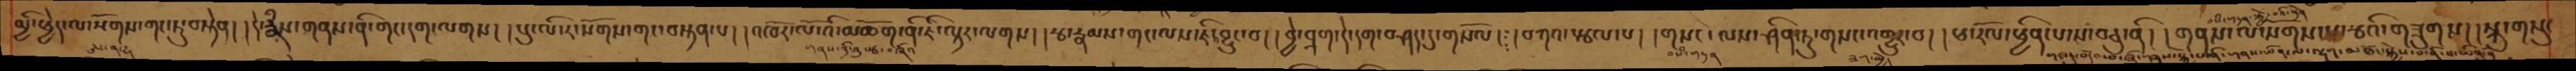མྱི་ཕྱེད་ལ་སོགས་གང་ཏུ་བསྟེན། །དེ་རྣཾས་གནས་ནི་གང་དག་ལགས། །སུ་ལི་ར་སོགས་གང་བསྟན་པ། །འཁོར་ལོ་འི་མཆོག་ནི་ཇི་ལྟར་ལགས། །རྩ་རྣམས་གང་ལས་ཇི་བྱུང་བ། །བྱེ་བྲག་དེ་དག་བཤད་དུ་གསོལ། །བཀའ་སྩལ་པ། །གསང་ལས་ཤིན་ཏུ་གསང་འགྱུར་བ། །ཕ་རོལ་ཕྱིན་པ་ས་བཅུ་ནི། །གནས་ལ་སོགས་པ་རྩའི་གཟུགས། །སྐུ་གསུང
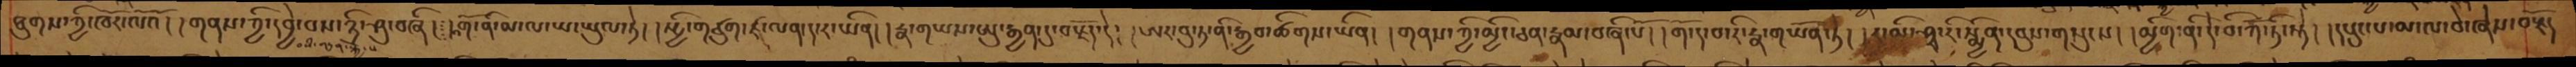ཐུགས་ཀྱི་ཁོར་ལོའོ། །གནས་ཀྱི་དབྱེ་བས་ཉི་ཤུ་བཞི། །འགོ་ནི་མ་ལ་ཡ་ཡུལ་ཏེ། །སྤྱི་གཙུག་ཛ་ལན་ད་ར་ཡིན། །རྣ་གཡས་ཨུ་རྒྱན་དུ་བརྗོད་དེ། །ཨར་བུ་ཏ་ནི་རྒྱབ་ཚིགས་ཡིན། །གནས་ཀྱི་མྱིང་ཅན་རྣམ་བཞི་པོ། །གོ་ད་བ་རི་རྣ་གཡོན་ཏེ། །ར་མི་ཤྭ་རི་སྨྱིན་དབུས་གསུངས། །མྱིག་ནི་དེ་བི་ཀོ་ཏི་སྟེ། །དཔུང་པ་མ་ལ་བེ་ཞེས་བརྗོད
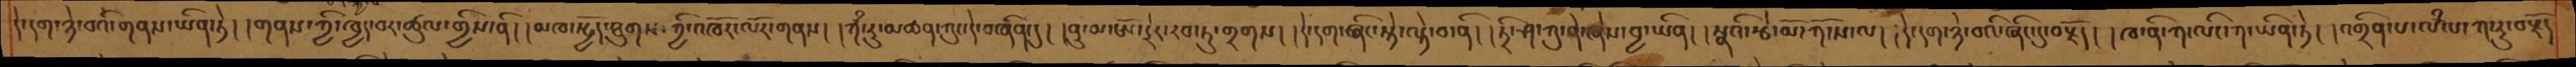དེ་དག་ཉེ་བའི་གནས་ཡིན་ཏེ། །གནས་ཀྱི་ཁྱད་པར་ཚུལ་གྱིས་ནི་། །མཁ་སྤྱོད་ཐུགས་ཀྱི་འཁོར་ལོར་གནས། །ཀཾ་རུ་མཚན་ཀུང་དེ་བཞིན་དུ། །ནུ་མ་ཨོ་དྲེད་རབ་ཏུ་གྲགས། དེ་དག་ཞིང་སྟེ་ལྟེ་བ་ནི་། །ཏྲི་ཤ་ཀུ་ནེ་ཞེས་བྱ་ཡིན། །སྣའི་རྩེ་མོ་ཀོ་ས་ལ། །དེ་དག་ཉེ་བའི་ཞིང་དུ་བརྗོད། །ཁ་ནི་ཀ་ལིང་ཀ་ཡིན་ཏེ། །འགྲིན་པ་ལཾ་པ་ཀ་རུ་བརྗོད
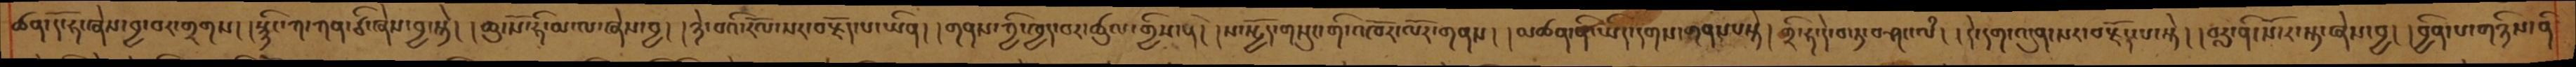ཚན་དོ་ཧ་ཞེས་བྱ་བར་གྲགས། །སྙིང་ཀ་ཀན་ཙི་ཞེས་བྱ་སྟེ།  ཆུ་སོ་ཧི་མ་ལ་ཞེས་བྱ། །ཉེ་བའི་རོལ་སར་བརྗོད་པ་ཡིན། །གནས་ཀྱི་ཁྱད་པར་ཚུལ་གྱིས་སྟེ། །ས་སྤྱོད་གསུང་གི་འཁོར་ལོར་གནས། །མཚན་ནི་ཡིད་དགས་གནས་པ་སྟེ། གྲི་ཧ་དེ་བ་ཏ་བཤང་ལཾ། །དེ་དག་འདུན་སར་བརྗོད་པ་སྟེ། བརླ་ནི་སོ་ར་སྟ་ཞེས་བྱ། །བྱིན་པ་གཉིས་ནི
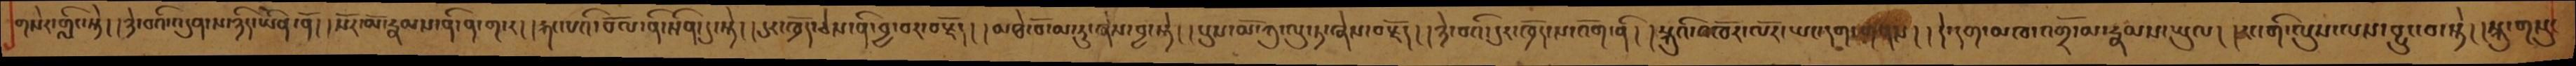གསེར་གླིང་སྟེ། །ཉེ་བའི་འདུན་པ་ཉིད་ཡིན་ནོ། །སོར་མོ་རྣམས་ནི་ན་ག་ར། །རྐང་པའི་བོལ་ནི་སིན་དུ་སྟེ། །དུར་ཁྲོད་ཅེས་ནི་བྱ་བར་བརྗོད། །མཐེ་བོ་མ་རུ་ཞེས་བྱ་སྟེ། །པུས་མོ་ཀུ་ལུ་ཏ་ཞེས་བརྗོད། །ཉེ་བའི་དུར་ཁྲོད་ས་འོག་ནི། །སྐུའི་འཁོར་ལོར་ཡང་དག་གནས། །དེ་དག་མཁ་འགྲོ་མ་རྣམས་ཡུལ། །རང་གི་ལུས་ལས་བྱུང་བ་སྟེ། །སྐུ་གསུང
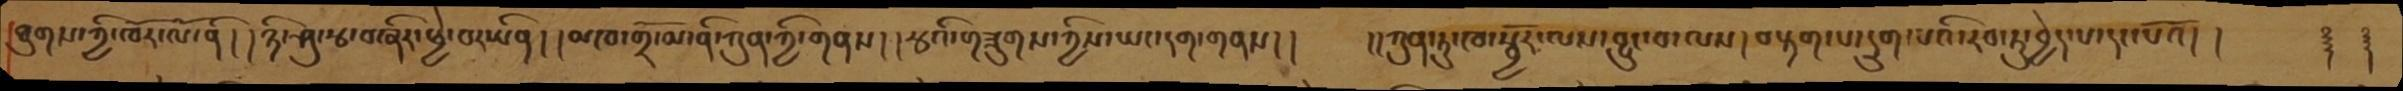ཐུགས་ཀྱི་ཁོར་ལོ་ནི ། །ཉི་ཤུ་རྩ་བཞིར་ཕྱེ་བ་ཡིན ། །མཁ་འགྲོ་མ་ནི་ཀུན་གྱི་གནས ། །རྩའི་གཟུགས་ཀྱིས་ཡང་དག་གནས།།  །།ཀུན་ཏུ་ཁ་སྦྱོར་ལས་བྱུང་བ་ལས ། བརྟག་པ་དྲུག་པའི་རབ་ཏུ་བྱེད་པ་དང་པོའོ། །  ࿑ ࿑
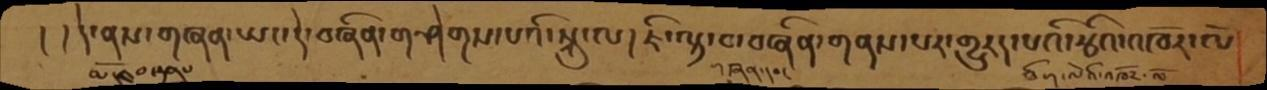། །དེ་ནས་གཞན་ཡང་དེ་བཞིན་གཤེགས་པའི་སྐུ་ལ། ཇི་ལྟ་བ་བཞིན་གནས་པར་གྱུརད་པའི་རྩའི་འཁོར་ལོ
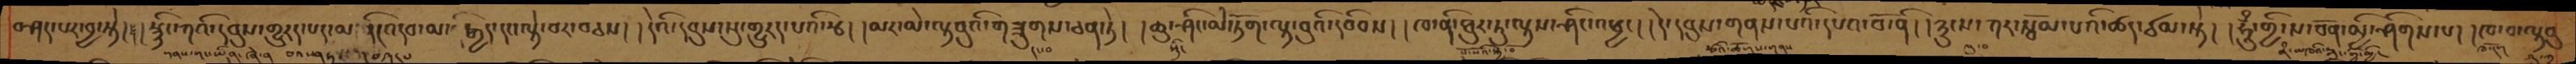བཤད་པར་བྱ་སྟེ། །སྙིང་ཀའི་དབུས་གྱུརད་པད་མ་རིངའདབ་མ་རྒྱིད་དང་ལྟེ་བར་བཅས། །དེའི་དབུས་སུ་གྱུརད་པའི་རྩ། །མར་མེ་ལྟ་བུའི་གཟུགས་ཅན་ཏེ། །ཆུ་ཤིང་མེ་ཏོག་ལྟ་བུའི་དབིབས། །ཁ་ནི་ཐུར་ཏུ་ལྟས་ཤིང་འཕྱང། །དེ་དབུས་གནས་པའི་དཔའ་བོ་ནི། །ཉུངས་ཀར་རྩོམ་པའི་ཚད་ཙམ་སྟེ། །ཧཱུྃ་གྱི་ས་བོན་མྱི་ཤིགས་པ། །ཁ་བ་ལྟབུ
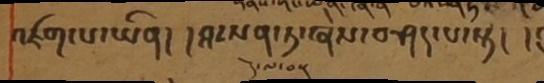འཛག་པ་ཡིན། །ཤངས་ན་ཏ་ཞེས་བཤད་པ་སྟེ། །
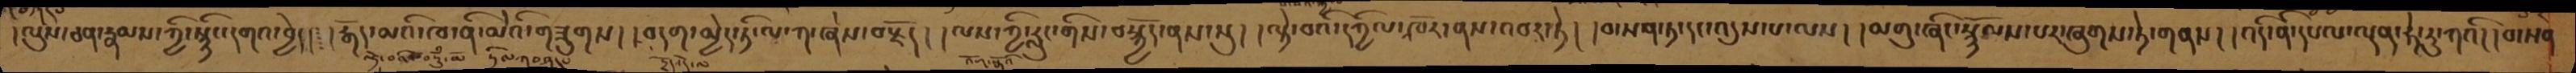།ལུས་ཅན་རྣམས་ཀྱི་སྙིང་དགའ་བྱེད། །རྒོད་མའི་ཁ་ནི་མེའི་གཟུགས། །བདག་མྱེད་ཏི་ལ་ཀ་ཞེས་བརྗོད། །ལས་ཀྱི་རླུང་གིས་བསྐྱོད་ནས་སུ། །ལྟེ་བའི་དཀྱིལ་འཁོར་ནས་འབར་ཏེ། །བ་སན་ཏ་དང་འདུས་པ་ལས། །མགུ་ཞིང་སྙོམས་པར་ཞུགས་ཏེ་གནས། །འདི་ནི་དཔལ་ལྡན་ཧེ་རུ་ཀའི། །བ་སེན
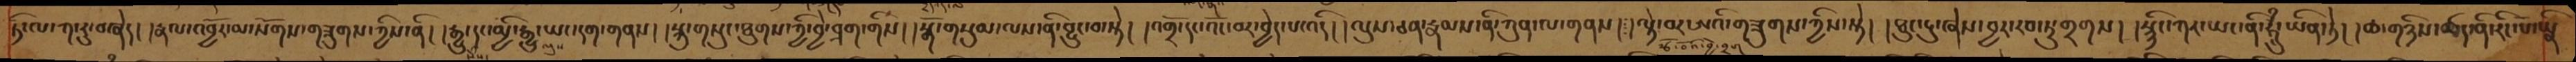ཏི་ལ་ཀ་རུ་བཞེད། །རྣལ་འབྱོར་མ་སོགས་གཟུགས་ཀྱིས་ནི། །རྒྱུ་དང་མྱི་རྒྱུ་ཡང་དག་གནས། །སྐུ་གསུང་ཐུགས་ཀྱི་བྱེ་བྲག་གིས། །སྒོ་གསུམ་ལས་ནི་བྱུང་བ་སྟེ། །འགྲོ་དང་འོང་བར་བྱེད་པ་འདི། །ལུས་ཅན་རྣམས་ནི་ཀུན་ལ་གནས། །ལྟེ་བར་ཨའི་གཟུགས་ཀྱིས་སྟེ། །ཐུང་ངུ་ཞེས་བྱར་རབ་ཏུ་གྲགས། །སྙིང་ཀར་ཡང་ནི་ཧཱུྃ་ཡིན་ཏེ། །ཆ་གཉིས་ཚད་ནི་རིང་པོ་ཡིན
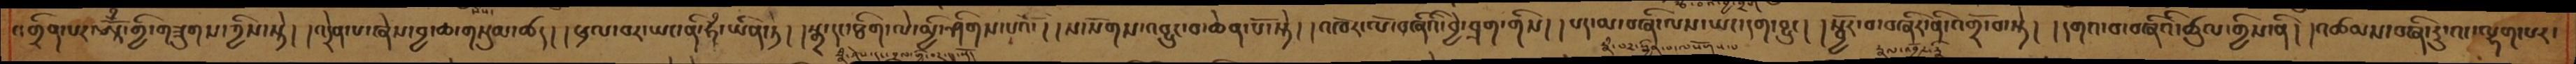འགྲིན་པར་ཨཱོྃ་གྱི་གཟུགས་ཀྱིས་སྟེ། །འདྲེན་པ་ཞེས་བྱ་ཆ་གསུམ་ཚད། །ཕྲལ་བར་ཡང་ནི་ཧྃ་ཡིན་ཏེ། །སྒྲ་དང་ཐིག་ལེ་མྱི་ཤིགས་པའོ། །ས་སོགས་འབྱུང་བ་ཆེན་པོ་སྟེ། །འཁོར་ལོ་བཞིའི་བྱེ་བྲག་གིས། །པད་མ་བཞི་ལས་ཡང་དག་བྱུང། །སྦྱོར་བ་བཞིར་ནི་འགྲོ་བ་སྟེ། །དགའ་བ་བཞིའི་ཚུལ་གྱིས་ནི། །འཚམས་བཞི་རུ་འང་ལྷག་པར་
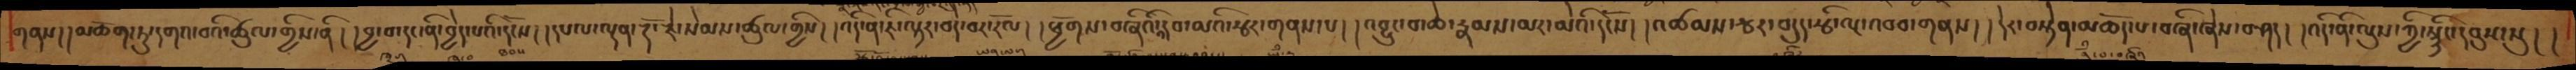གནས།།མཆོག་ཏུ་དགའ་བའི་ཚུལ་གྱིས་ནི། །བྱ་བ་དང་ནི་བྱེད་པའི་དངོས། །དཔལ་ལྡན་རྡོ་རྗེ་སེམས་ཚུལ་གྱིས། །འདི་ནི་ཇི་ལྟར་བདེ་བར་རོལ། །ཕྱོགས་བཞིའི་འདབ་མའི་རྩར་གནས་པ། །འབྱུང་བ་ཆེ་རྣམས་མར་མེའི་དངོས། །འཚམས་རྩར་བདུད་རྩི་ལྔ་འབབ་གནས། །དེར་བསྟེན་མཆོད་པ་བཞི་ཞེས་བཤད། །འདི་ནི་ལུས་ཀྱི་སྙིང་དབུས་སུ། །
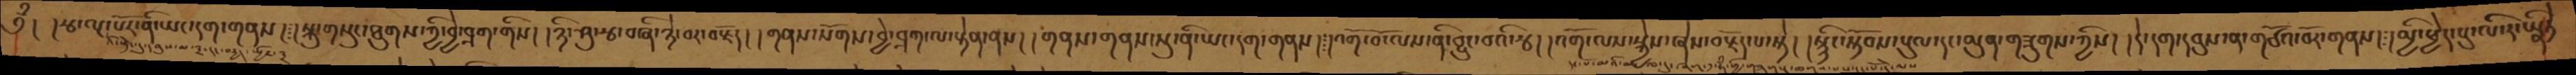༄ྃ། །རྩ་ལྔ་པོར་ནི་ཡང་དག་གནས། །སྐུ་གསུང་ཐུགས་ཀྱི་བྱེ་བྲག་གིས། །ཉི་ཤུ་རྩ་བཞི་ཉེ་བར་བརྗོད། །གནས་སོགས་བྱེ་བྲག་ལ་རྟེན་ནས། །གནས་གནས་སུ་ནི་ཡང་དག་གནས། །འགོ་བོ་ལས་ནི་བྱུང་བའི་རྩ། །འགོ་ལས་སྐྱེས་ཞེས་བརྗོད་པ་སྟེ། །སྙིང་སྟོབས་རྡུལ་དང་མུན་གཟུགས་ཀྱིས། །དེ་དག་དབུས་ན་གཙོའ་བོར་གནས། །མྱི་ཕྱེད་སུ་ལི་ར་ཡིནཏེ
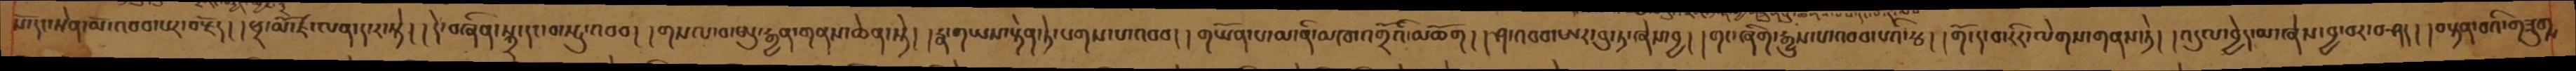སོ་དང་སེན་མོ་འབབ་པར་བརྗོད། །ཕྲ་མོ་ཛ་ལན་ད་ར་སྟེ། །དེ་བཞིན་སྐྲ་དང་བ་སྤུ་འབབ། །གསལ་བ་ཨུ་རྒྱན་གནས་ཆེན་སྟེ། །རྣ་གཡས་རྟེན་ཏེ་པགས་པ་འབབ། །གཡོན་པ་མ་ནི་མཁ་འགྲོའི་མཆོག། །ཤ་འབབ་ཨར་བུ་ཏ་ཞེས་བྱ། །གང་ཞིག་རྒྱུས་པ་འབབ་པའི་རྩ། །གོ་ད་བ་རིར་ལེགས་གནས་ཏེ། །འདུལ་བྱེད་མ་ཞེས་བྱ་བར་བཤད། །བསྟན་བའི་གཟུགས
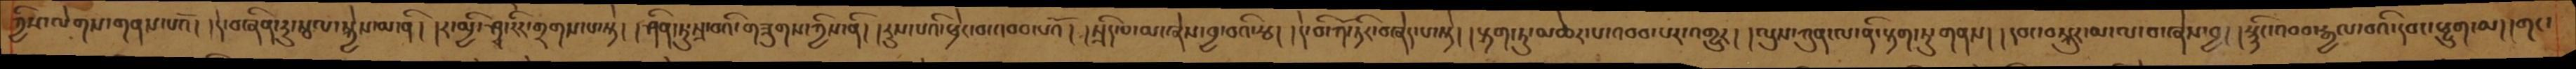ཀྱིས་ལེགས་གནས་པའོ། །དེ་བཞིན་རུ་སྦལ་སྐྱེས་མ་ནི། །ར་མྱི་ཤྭ་རིར་གྲགས་པ་སྟེ། །ཤིན་ཏུ་སྲ་བའི་གཟུགས་ཀྱིས་ནི། །རུས་པའི་ཕྲེང་བ་འབབ་པའོ། །སྲིད་པ་མ་ཞེས་བྱ་བའི་རྩ། །དེ་བི་ཀོ་ཏིར་བཞེད་པ་སྟེ། །རྟག་ཏུ་མཆེར་པ་འབབ་པར་འགྱུར། །ལུས་ཀུན་ལ་ནི་རྟག་ཏུ་གནས། །དབང་བསྐུར་མ་ལ་བ་ཞེས་བྱ། །སྙིང་འབབ་རྒྱལ་བའི་དབང་ཕྱུག་མ།།གང་
